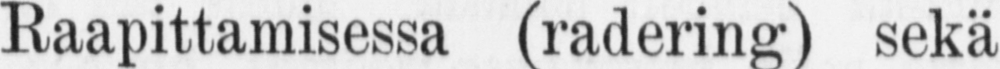Raapittamisessa sekä
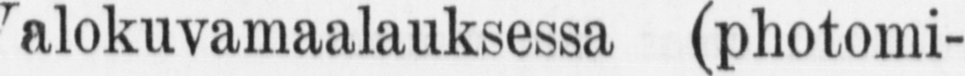Valokuvamaalauksessa (photomi-
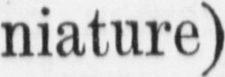niature)
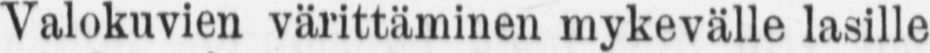(Valokuvien värittäminen mykevälle lasille
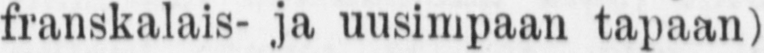franskalais- ja uusimpaan tapaan)
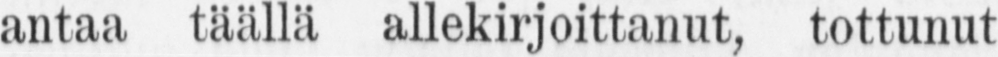antaa täällä allekirjoittanut, tottunut
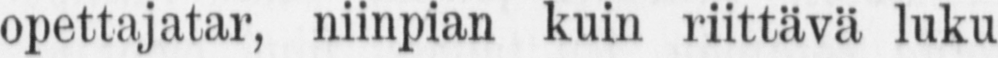opettajatar, niinpian kuin riittävä luku
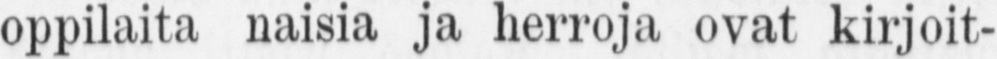oppilaita naisia ja herroja ovat kirjoit-
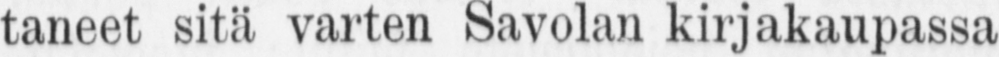taneet sitä varten Savolan kirjakaupassa
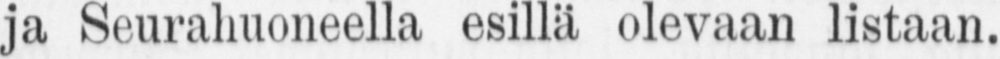ja Seurahuoneella esillä olevaan listaan.
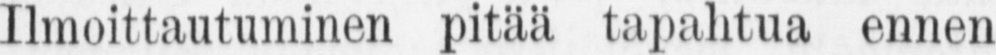Ilmoittautuminen pitää tapahtua ennen
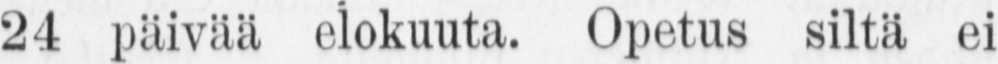24 päivää elokuuta. Opetus siltä ei
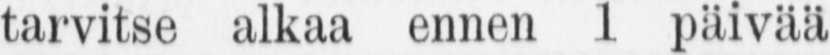tarvitse alkaa ennen 1 päivää Syys-
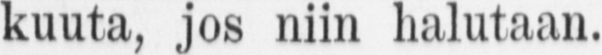kuuta, jos niin halutaan.
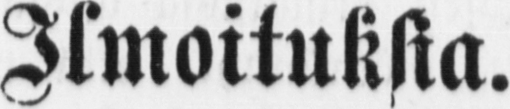Ilmoitukkia.
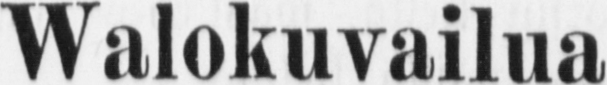Walokuvailua
